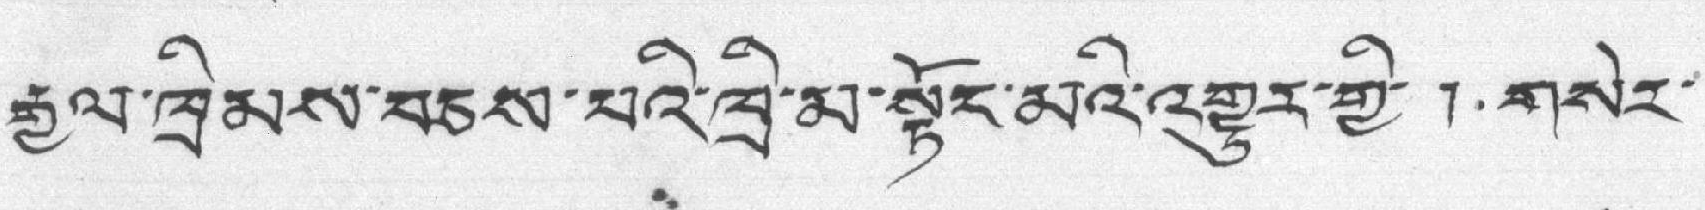རྒྱལ་ཁྲིམས་བཅས་པའི་ཁྲི་མ་སྟོང་མའི་འགྱུར་གྱི་ ། གསེར་
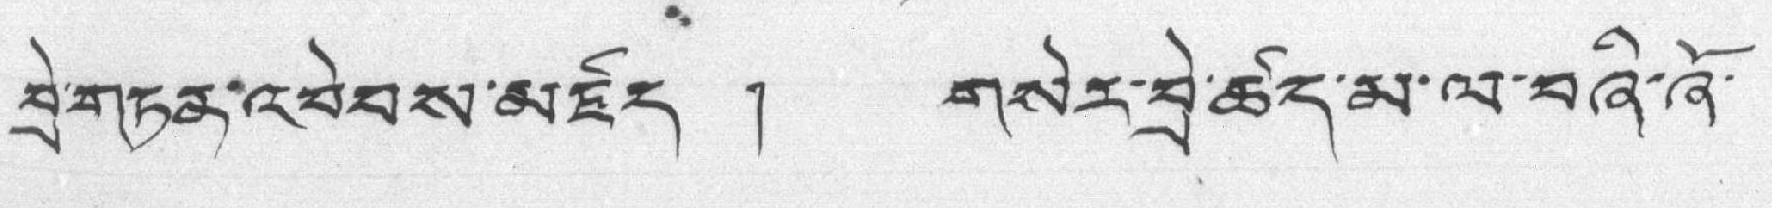བྲེ་གཏན་འབེབས་མཛད ། གསེར་བྲེ་ཚད་མ་ལ་བཞི་ཞོ་
